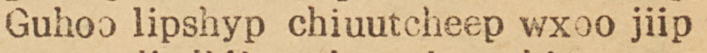Guhoo lipshyp chiuutcheep wxoo jiip
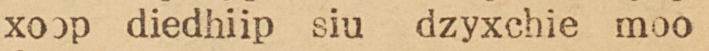xoop diedhiip siu dzyxchie moo
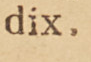dix.
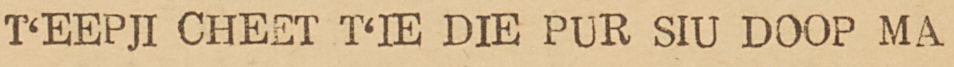T'EEPJI CHEET T'IE DIE PUR SIU DOOP MA
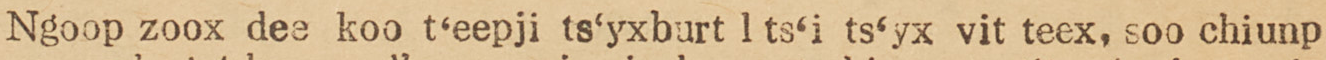Ngoop zoox dee koo t'eepji ts'yxburt l ts'i ts'yx vit teex, soo chiunp
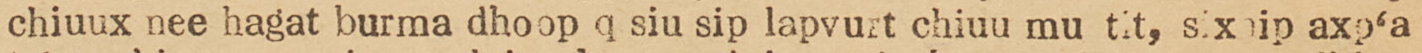chiuux nee hagat burma dhoop q siu sip lapvurt chiuu mu tit, sixnip axp'a
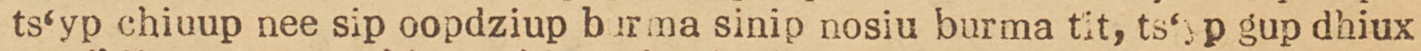ts'yp chiuup nee sip oopdziup burma sinip nosiu burma tit, ts'yp gup dhiux
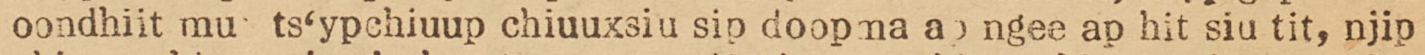oondhiit mu ts'ypchiuup chiuuxsiu sip doopma ap ngee ap hi siu tit, njip
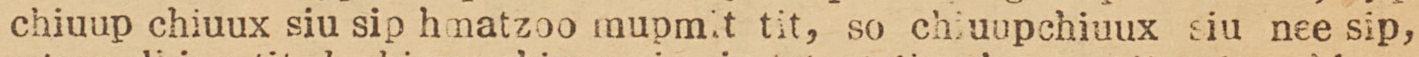chiuup chiuux siu sip hmatzoo mupmit tit, so chiuupchiuux siu nee sip,
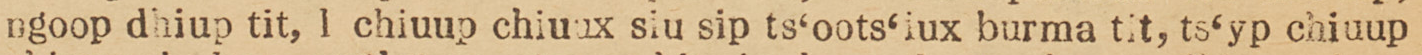ngoop dhiup tit, l chiuup chiuux siu sip ts'oots'iux burma tit, ts'yp chiuup
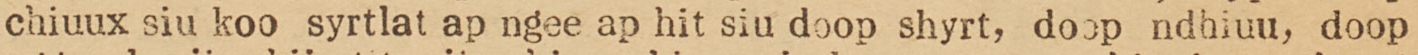chiuux siu koo syrtlat ap ngee ap hit siu doop shyrt, doop dhiuu, doop
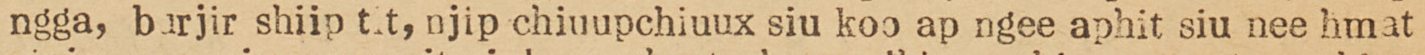ngga, burjir shiip tit, njip chiuupchiuux siu koo ap ngee aphit siu nee hmat
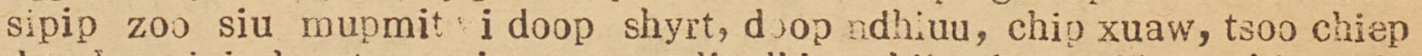sipip zoo siu mupmit i doop shyrt, doop ngdhiuu, chip xuaw, tsoo chiep
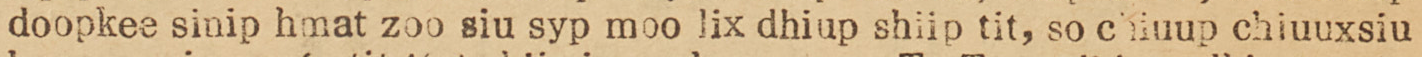doopkee sinip hmat zoo siu syp moo lix dhiup shiip tit, so chiuup chiuuxsiu
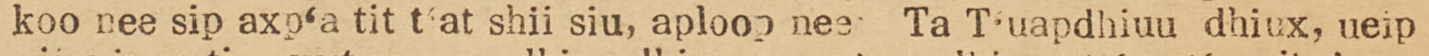koo nee sip axp'a tit tiat shii siu, aploop nee. Ta Tiuapdhiuu dhiux, ueip
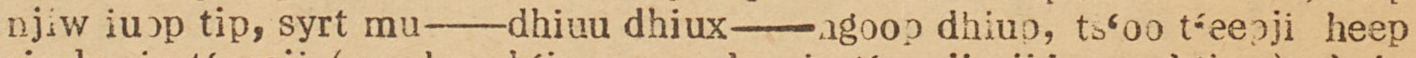njiw iuop tip, syrt mu——dhiuu dhiux——ngoop dhiup, ts'oo t'eepji heep
